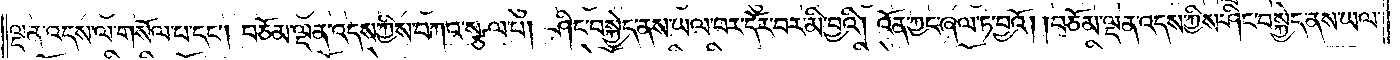ལྡན་འདས་ལ་གསོལ་པ་དང༌། བཅོམ་ལྡན་འདས་ཀྱིས་བཀའ་སྩལ་པ། ཤིང་བསྐྱེད་ནས་ཡལ་བར་དོར་བར་མི་བྱའི། འོན་ཀྱང་ཞལ་ཏ་བྱའོ། །བཅོམ་ལྡན་འདས་ཀྱིས་ཤིང་བསྐྱེད་ནས་ཡལ་
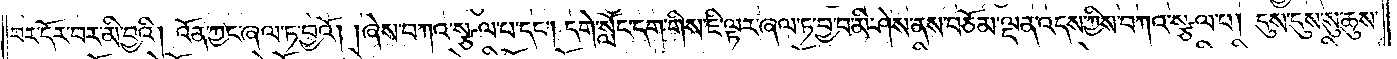བར་དོར་བར་མི་བྱའི། འོན་ཀྱང་ཞལ་ཏ་བྱའོ། །ཞེས་བཀའ་སྩལ་པ་དང༌། དགེ་སློང་དག་གིས་ཇི་ལྟར་ཞལ་ཏ་བྱ་བ་མི་ཤེས་ནས་བཅོམ་ལྡན་འདས་ཀྱིས་བཀའ་སྩལ་པ། དུས་དུས་སུ་ཆུས་
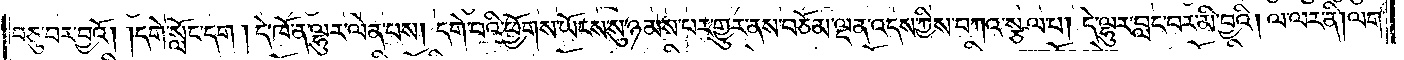བཅུ་བར་བྱའོ། །དགེ་སློང་དག །དེ་ཁོ་ན་ལྷུར་ལེན་པས། དགེ་བའི་ཕྱོགས་ཡོངས་སུ་ཉམས་པར་གྱུར་ནས་བཅོམ་ལྡན་འདས་ཀྱིས་བཀའ་སྩལ་པ། དེ་ལྷུར་བླང་བར་མི་བྱའི། ལ་ལར་ནི། ལག་
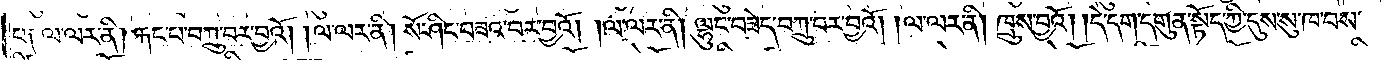པ༑ ལ་ལར་ནི། རྐང་པ་བཀྲུ་བར་བྱའོ། །ལ་ལར་ནི། སོ་ཤིང་བཟའ་བར་བྱའོ། །ལ་ལར་ནི། ལྷུང་བཟེད་བཀྲུ་བར་བྱའོ། །ལ་ལར་ནི། ཁྲུས་བྱའོ། །དེ་དག་དགུན་སྟོད་ཀྱི་དུས་སུ་ཁ་བས་
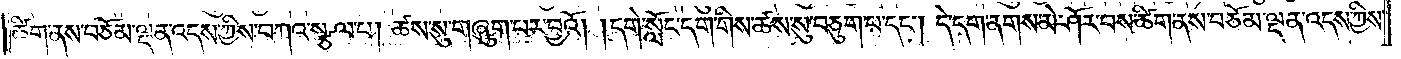ཚིག་ནས་བཅོམ་ལྡན་འདས་ཀྱིས་བཀའ་སྩལ་པ། ཚས་སུ་གཞུག་པར་བྱའོ། །དགེ་སློང་དག་གིས་ཚས་སུ་བཅུག་པ་དང༌། དེ་དག་ནགས་མེ་ཤོར་བས་ཚིག་ནས་བཅོམ་ལྡན་འདས་ཀྱིས་
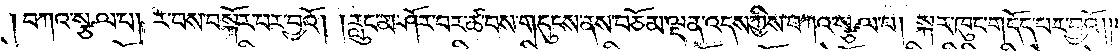བཀའ་སྩལ་པ། ར་བས་བསྐོར་བར་བྱའོ། །རླུང་མ་ཤོར་བར་ཚ་བས་གདུངས་ནས་བཅོམ་ལྡན་འདས་ཀྱིས་བཀའ་སྩལ་པ། སྐར་ཁུང་གདོད་པར་བྱའོ། །
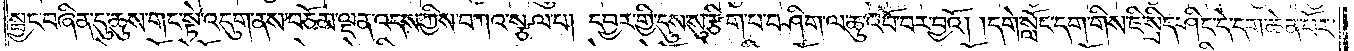སྦྱང་བཞིན་དུ་ཆུས་གང་སྟེ་འདུག་ནས་བཅོམ་ལྡན་འདས་ཀྱིས་བཀའ་སྩལ་པ། དབྱར་གྱི་དུས་སུ་རྩིག་པ་བཤིག་ལ་ཆུ་འབོ་བར་བྱའོ། །དགེ་སློང་དག་གིས་ཇི་སྲིད་ཤིང་དེ་དག་ཆེན་པོར་
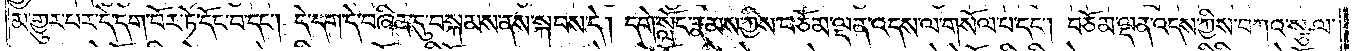མ་གྱུར་པར་དེ་དག་བོར་ཏེ་དོང་བ་དང༌། དེ་དག་དེ་བཞིན་དུ་བསྐམས་ནས་སྐབས་དེ། དགེ་སློང་རྣམས་ཀྱིས་བཅོམ་ལྡན་འདས་ལ་གསོལ་པ་དང༌། བཅོམ་ལྡན་འདས་ཀྱིས་བཀའ་སྩལ་
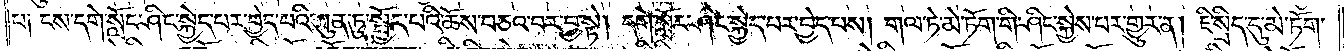པ༑ ངས་དགེ་སློང་ཤིང་སྐྱེད་པར་བྱེད་པའི་ཀུན་ཏུ་སྤྱོད་པའི་ཆོས་བཅའ་བར་བྱ་སྟེ། དགེ་སློང་ཤིང་སྐྱེད་པར་བྱེད་པས། གལ་ཏེ་མེ་ཏོག་གི་ཤིང་སྐྱེས་པར་གྱུར་ན། ཇི་སྲིད་དུ་མེ་ཏོག་
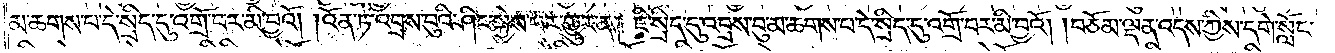མ་ཆགས་པ་དེ་སྲིད་དུ་འགྲོ་བར་མི་བྱའོ། །འོན་ཏེ་འབྲས་བུའི་ཤིང་སྐྱེས་པར་གྱུར་ན། ཇི་སྲིད་དུ་འབྲས་བུ་མ་ཆགས་པ་དེ་སྲིད་དུ་འགྲོ་བར་མི་བྱའོ། །བཅོམ་ལྡན་འདས་ཀྱིས་དགེ་སློང་
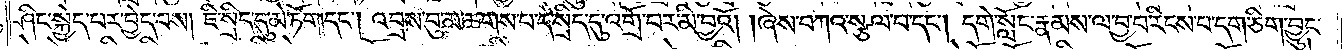ཤིང་སྐྱེད་པར་བྱེད་པས། ཇི་སྲིད་དུ་མེ་ཏོག་དང༌། འབྲས་བུ་མ་ཆགས་པ་དེ་སྲིད་དུ་འགྲོ་བར་མི་བྱའོ། །ཞེས་བཀའ་སྩལ་པ་དང༌། དགེ་སློང་རྣམས་ལ་བྱ་བ་རིངས་པ་དག་ཅིག་བྱུང་
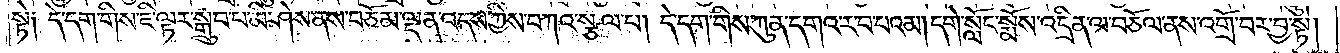སྟེ༑ དེ་དག་གིས་ཇི་ལྟར་སྒྲུབ་པ་མི་ཤེས་ནས་བཅོམ་ལྡན་འདས་ཀྱིས་བཀའ་སྩལ་པ། དེ་དག་གིས་ཀུན་དགའ་ར་བ་པའམ། དགེ་སློང་སྨོས་འདྲིན་ལ་བཅོལ་ནས་འགྲོ་བར་བྱ་སྟེ།
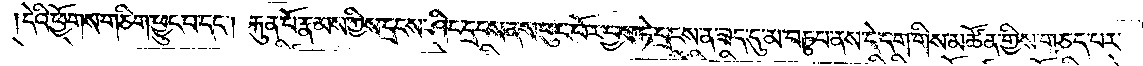དེའི་ཕྱོགས་གཅིག་ཕྱུང་བ་དང༌། རྐུན་པོ་རྣམས་ཀྱིས་དྲངས་ཤིང་དྲངས་ནས་ཕུང་པོར་བྱས་ཏེ་དྲངས་ན་ཟད་དུ་མ་བཏུབ་ནས་དེ་དག་གིས་མཚོན་གྱིས་གཅད་པར་
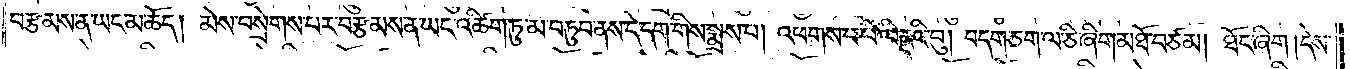བརྩམས་ན་ཡང་མ་ཆོད། མེས་བསྲེགས་པར་བརྩམས་ན་ཡང་འཚིག་ཏུ་མ་བཏུབ་ནས་དེ་དག་གིས་སྨྲས་པ། འཕགས་པ་པི་ལིནདའི་བུ། བདག་ཅག་ལ་ཅི་ཞིག་མཐོ་བཙམ། ཐོང་ཞིག། དེས་
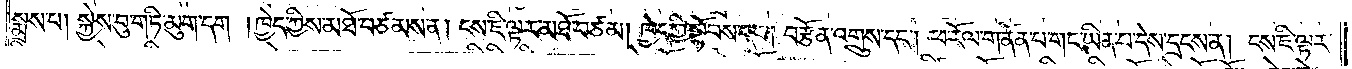སྨྲས་པ། སྐྱེས་བུ་གཏི་མུག་དག །ཁྱེད་ཀྱིས་མཐོ་བཙམས་ན། ངས་ཇི་ལྟར་མཐོ་བཙམ། ཁྱེད་ཀྱི་སྟོབས་དང༌། བརྩོན་འགྲུས་དང༌། ཕ་རོལ་གནོད་པ་གང་ཡིན་པ་དེས་དྲངས་ན། ངས་ཇི་ལྟར་
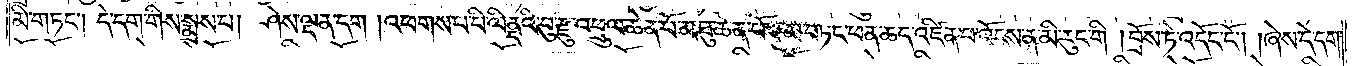མི་གཏང༌། དེ་དག་གིས་སྨྲས་པ། ཤེས་ལྡན་དག །འཕགས་པ་པི་ལིནདའི་བུ་རྫུ་འཕྲུལ་ཆེན་པོ་མཐུ་ཆེན་པོས་མ་བཏང་ཕན་ཆད་འཛིན་པ་འོངས་ན་མི་རུང་གི། བྲོས་ཏེ་འདོང་ངོ༌། །ཞེས་དེ་དག་
